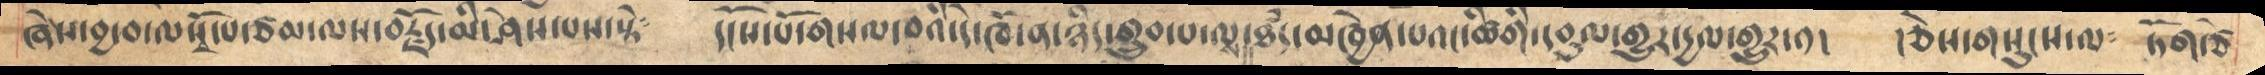ཞེས་བྱ་བ་ལསྭོ་པ་ཙམ་ལས་བརྗོད་མི་ཤིས་པས་སྟེ༴  དངོས་པོ་གསལ་བའི་དེ་ཁོ་ན་ཉིད་གྲུབ་པ་ལས་ཐཾད་མཁྱེན་པའང་ཚིགི་དབུལ་གྱུར་དྱལ་གྱུར་༡།  ཅེས་གསུངས་ལ༴  ཏོག་ཙེ
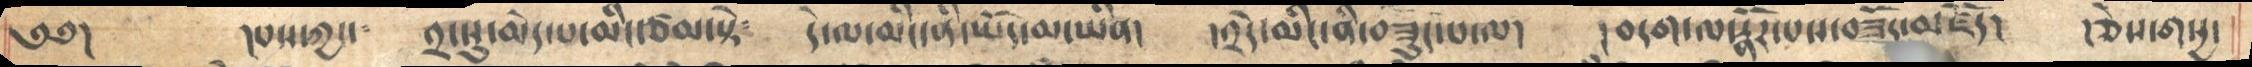༄༅།    །པས་ཀྱང་་༴    ༢་སུ་མེད་པ་མིང་ཙམ་སྟེ༴    དེ་ལ་མིང་ནི་ཡོད་མ་ཡིན།   །༢དེ་མིང་ནི་བཟུང་པ་ལ།   །བདག་ལ་རྣོར་པས་བཟོད་མཛོད།   །ཅེས་གསྱ་་
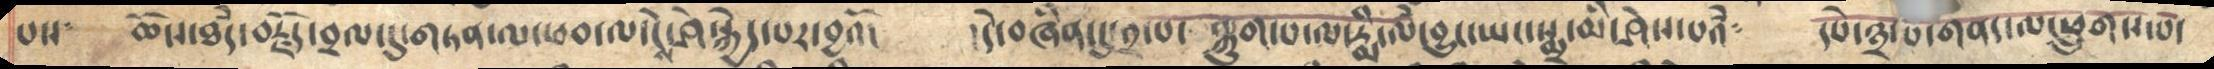པས༴  ཆོས་ཐཾད་བརྗོད་བྲལ་དུ་གཏན་ལ་ཕབ་ངེས་ཤེ་སྐྱེད་པར་བྱའོ།  །དེ་བཞིན་དུ་༢་པ༴  ལྐུག་པ་ལ་རྨི་ལཾ་བྱུང་ཡང་སྨྲ་མི་ཤེས་པའཾ༴  དཔེ་ཉྲ་པ་གནད་ལ་ཕྲུགས་པོ།
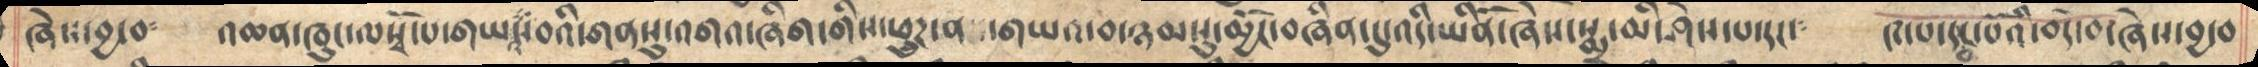ཞེས་བྱ་བ༴   འཆན་ཁུང་ལསྭོ་པ་གཡས་བའི་གནསུ་འགའ་ཞིག་གིས་ཕྱུཌ་ན་གཡའ་བ་ཉམསུ་མྱོང་བཞིན་དུ་འདི་ཡིནོ་ཞེས་སྨྲ་མི་ཤེས་པ་དང་༴ ༤་པ་དབང་པོའི་བདེ་བ་ཞེས་བྱ་བ
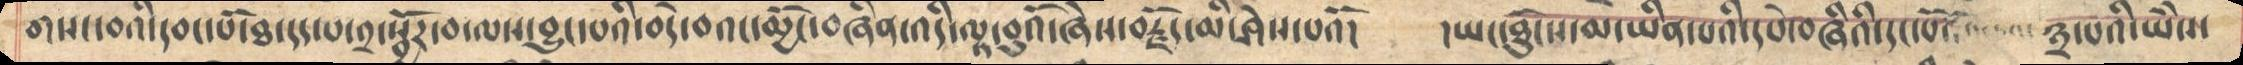གསང་བའི་དབང་པོ་ཐ་དད་པ་༢་སྦྱོར་བ་ལས་བྱུང་པའི་བདེ་བའང་མྱོང་བཞིན་འདི་ལྟ་བུའོ་ཞེས་བརྗོད་མི་ཤེས་པའོ།   །ཡང་ཐོུངས་མ་ཡིན་པའི་དཔེ་བཞིའི་དང་པོའོ་  ༣་པའི་ཡཻས་
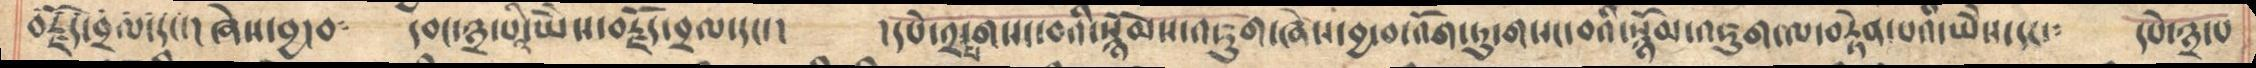བརྗོད་བྲལ་དང། ཞེས་བྱ་བ༴  དབང་༣་པའི་ཡཻས་བརྗོད་བྲལ་དང་།  །དཔེ་༢་པ་གསང་བའི་སྙོམས་འཇུག་ཞེས་བྱ་བ་འོག་ཏུ་གསང་བའི་སྙོམ་འཇུག་ལ་བརྟེན་པའི་ཡཻས་དང་༴  དཔེ་༣་པ
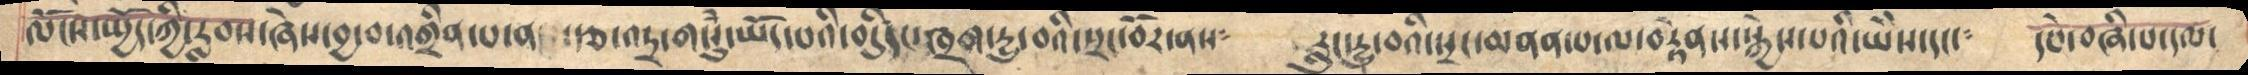ལོངས་སྤྱོད་ཀྱི་རླབས་ཞེས་བྱ་བ་འགྲིན་པ་ན རྩ་འདྲ་གསུཾ་ཡོད་པའི་བདུདི་ཁྲག་དྱུ་བའི་སྲང་བོར་ནས༴    རླུང་དྱུ་བའི་སྲང་མནན་པ་ལ་བརྟེནས་སྐྱེས་པའི་ཡཻས་དང་་༴   དཔེ་བཞི་པ་དལ་
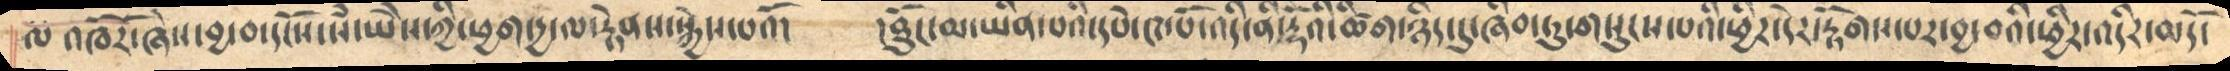ལ འཁོརོ་ཞེས་བྱ་བ་དངོས་པོ་སཾ་ཡཻས་ཀྱི་ཕྱག་དྱ་ལ་རྟེནས་སྐྱེས་པའོ།    །ཐོུང་མ་ཡིན་པའི་དཔེ་༤་པོ་འདི་ནི་རྡོའི་ཚིག་ཉིད་དུ་ཞིབ་ཏུ་གསུངས་པའི་ཕྱིར་དེར་རྟོགས་པར་བྱ་བའི་ཕྱིར་འདིར་མདོ་
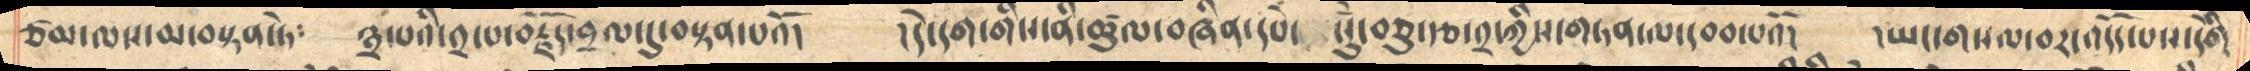ཙམ་ལས་མ་བསྟན་ཏེ༴ ༣་པའི་༢་པ་བརྗོད་བྲལ་དུ་བསྟན་པའོ།    །དེ་དག་གིས་ནི་ཚུལ་བཞིན་དཔེ་ སུཾ་བཅུ་རྩ་༢་ཀྱིས་གཏན་ལ་དབབ་པའོ།    །ཡང་གསལ་བར་འདོད་པས་དེགི
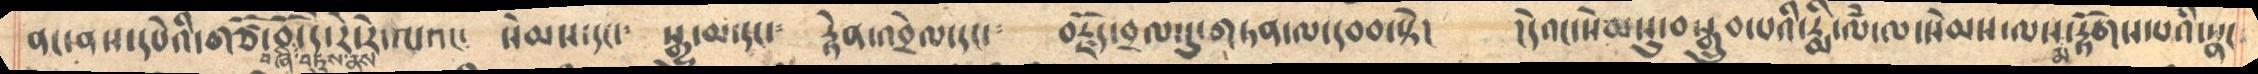ནང་ནས་དཔེའི་གཙོ་བོ་བཞི་བཏུས་ནས་དེ་རེ་རེ་ལའང༴   སེམས་དང་༴  སྒྱུ་མ་དང་༴  རྟེན་འབྲེལ་དང་༴  བརྗོད་བྲལ་དུ་གཏན་ལ་དབབ་སྟེ།  །དེའང་སེམསུ་བསྒྲུབ་པའི་རྨི་ལཾ་ལ་སེམས་ལས་མ་རྟོགས་པའི་སྣང
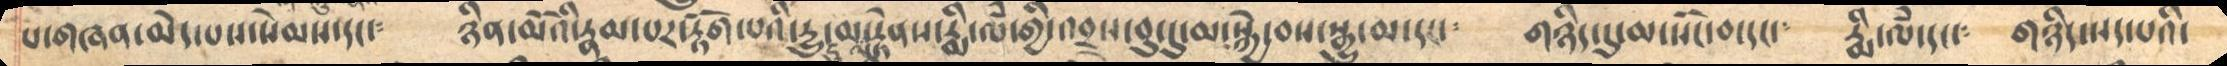པ་གཞན་མེད་པས་སེམས་དང་༴  ཉིན་མོའི་རྣམ་པར་རྟོག་པའི་དྱུ་དུ་མ་ལ་རྟེནས་རྨི་ལཾ་གྱི་འབྲས་བུ་དུ་མ་སྐྱེ་བས་སྒྱུ་མ་དང་༴   གཉིད་དུ་མ་སོང་བ་དང་༴  རྨི་ལཾ་དང་༴  གཉིད་སད་པའི་
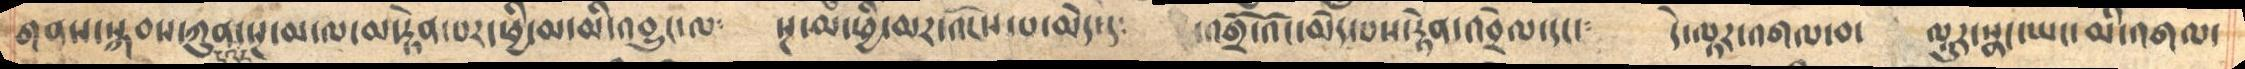གནས་སྐབས་ཀུན་དུའང་སྔ་མ་ལ་མ་རྟེན་པར་ཕྱི་མ་མི་འབྱུང་ལ༴  སྔ་མ་ཕྱི་མར་འོངས་པ་མེད་ད༴  འགྲོ་འོང་མེད་པས་རྟེན་འབྲེལ་དང་༴  དེ་ལྟར་འགལ་བ་  ལྟུར་སྣང་ཡང་མི་འགལ་
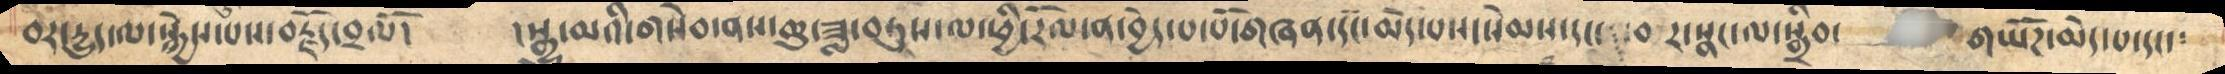བར་དྱུད་ལ་སྐྱེས་པས་བརྗོད་བྲལོ།    །སྒྱུ་མའི་གསེབ་ནས་ཆུ་ཟླ་བཏུས་ལ་ཕྱི་རོལ་ན་བྱེད་པ་པོ་གཞན་དང་མེད་པས་སེམས་དང་བར་སྣང་ལ་སྒྲིབ་   གཡོཌ་མེད་པ་དང་༴
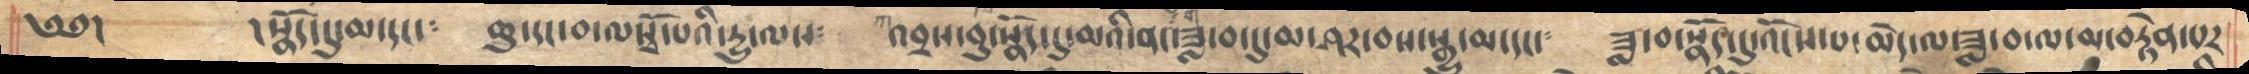༄༅།        །སྣོད་དུ་མ་དང༴   ཆུ་དང་བ་ལསྭོ་པའི་དྱུ་ལས༴  འབྲས་བུ་སྣོད་དུ་མའི་ནང་ཟླ་བ་དུ་མ་ཤར་བས་སྒྱུ་མ་དང་༴  ཟླ་བ་སྣོད་དུ་འོངས་པ་མེད་ལ་ཟླ་བ་ལ་མ་བརྟེན་པར
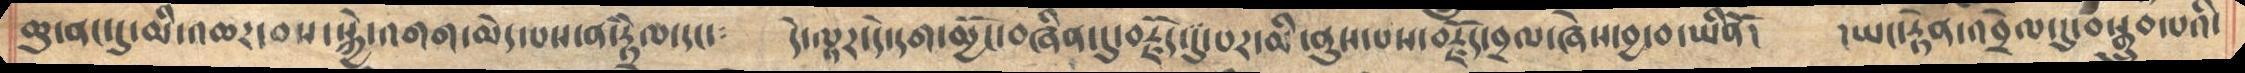ཆུ་ནང་དུ་མི་འཆར་བས་སྐྱེ་འགག་མེད་པས་ན་རྟྲེེལ་དང་༴   དེ་ལྟར་དེ་དག་མྱོང་བཞིན་དུ་བརྗོད་དུ་པར་མི་ནུས་པས་བརྗོད་བྲལ་ཞེས་བྱ་བ་ཡིནོ།   །ཡང་རྟེན་འབྲེལ་དུ་བསྒྲུབ་པའི་
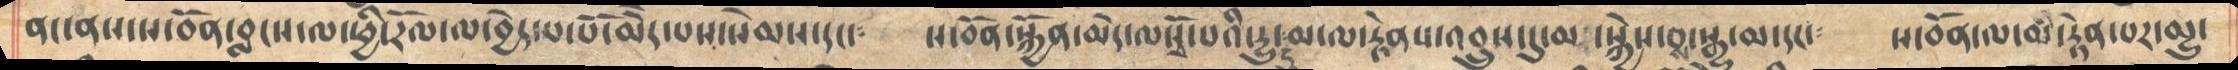ནང་ནས་ས་བོན་བླངས་ལ་ཕྱི་རོལ་ལ་བྱེད་པ་པོ་མེད་པས་སེམས་དང་༴  ས་བོན་སྐྱོན་མེད་ལསྭོ་པའི་དྱུ་དུ་མ་ལ་རྟེནས་འབྲུས་དུ་མ་སྐྱེས་བས་སྒྱུ་མ་དང་༴  ས་བོན་ལ་མ་རྟེན་པར་མྱུ་
